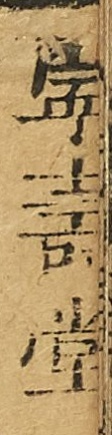寧壽堂
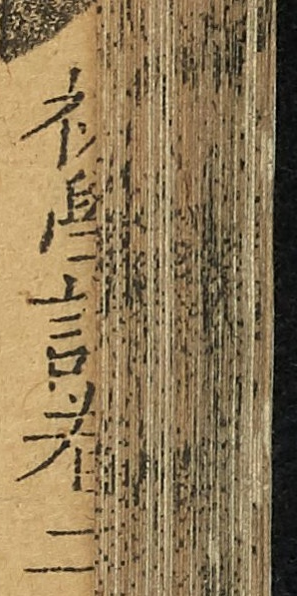初学记卷二
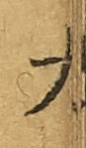九
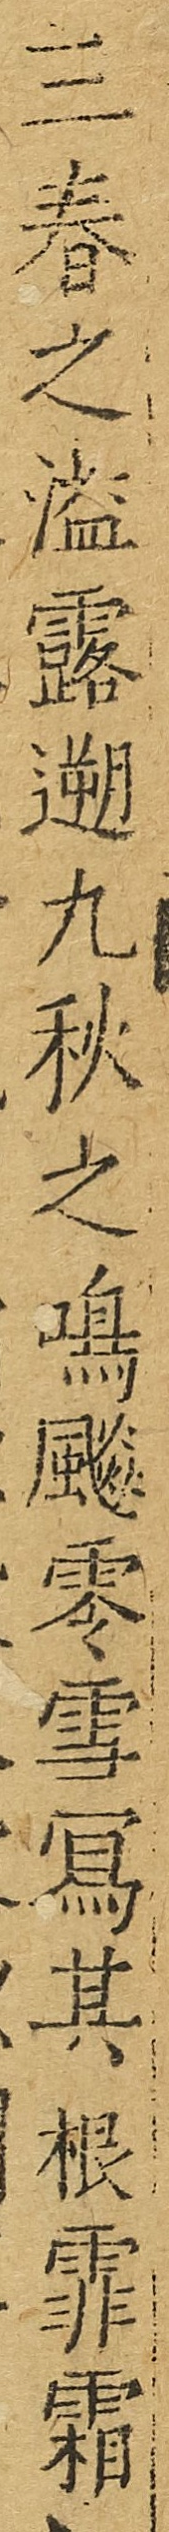三春之溢露溯九秋之鳴飆零雪寫其根霏霜
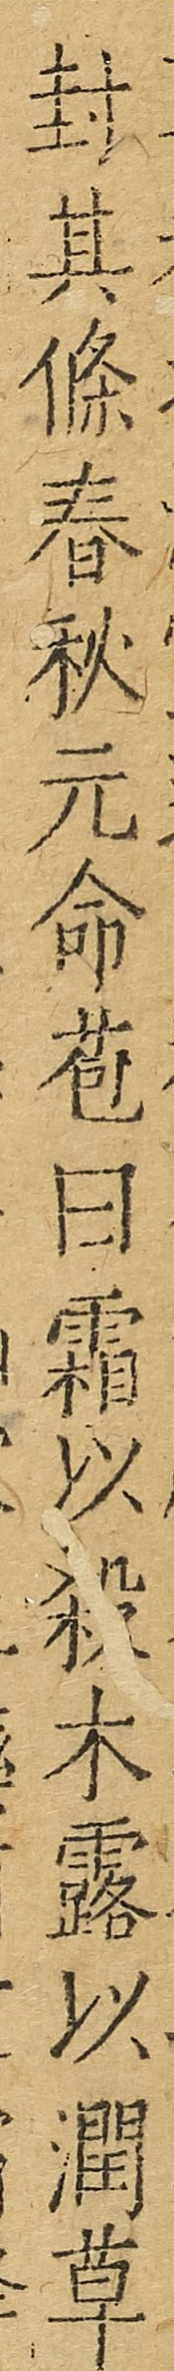封其條春秋元命苞曰霜以殺木露以潤草
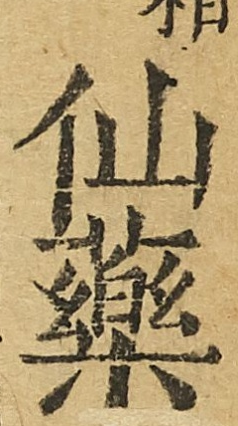仙藥
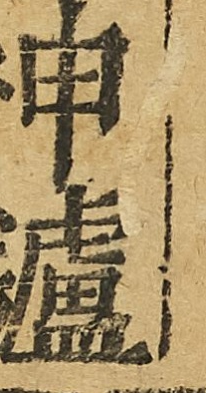神爐
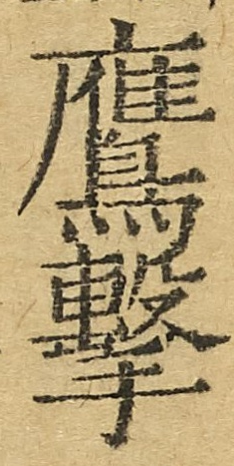鷹擊
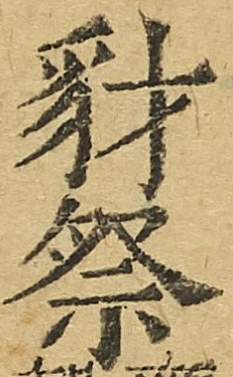豺祭
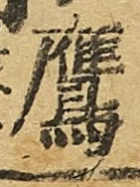鷹
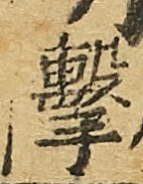擊
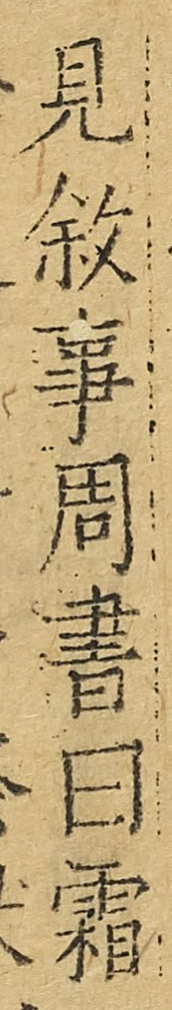見敍事周書曰霜
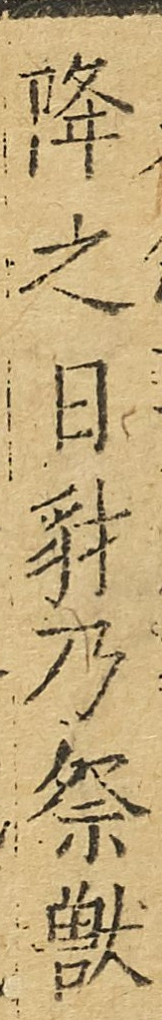降之日豺乃祭獸
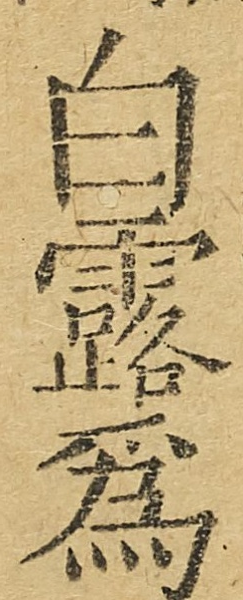白露爲
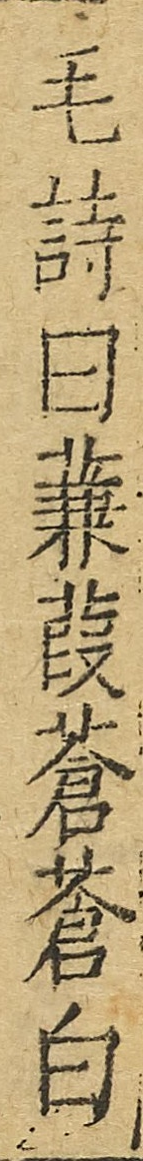毛詩曰蒹葭蒼蒼白
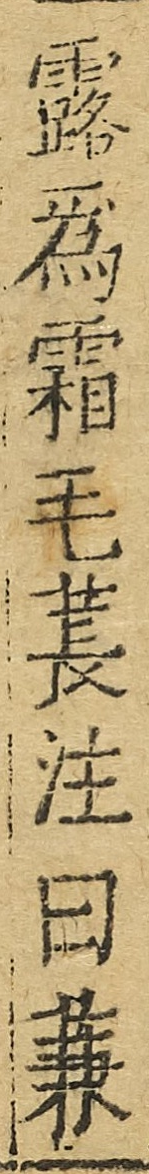露爲霜毛萇注曰蒹
